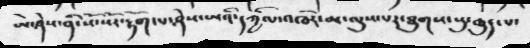ཡེ་ཤེས་སོ་སོར་རྟོག་པ་ཤེས་ཡའི་དཀྱིལ་འཁོར་མ་ལུས་པར་ཐུགས་སུ་ཆུད་པ་
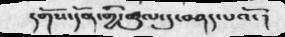དགོས་དོན་གྱི་ཚུལ་དུ་བཤད་པའོ་།
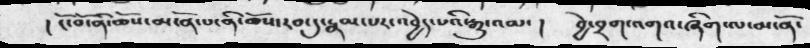། ངོ་བོ་ནི་ཆོས་མངོན་པ་ནི་ཆོས་རབ་དུ་རྣམཔར་འབྱེད་པའི་རྒྱུ་འམ་།  བྱེ་བྲག་འགའ་ཞིག་ལ་མངོན་
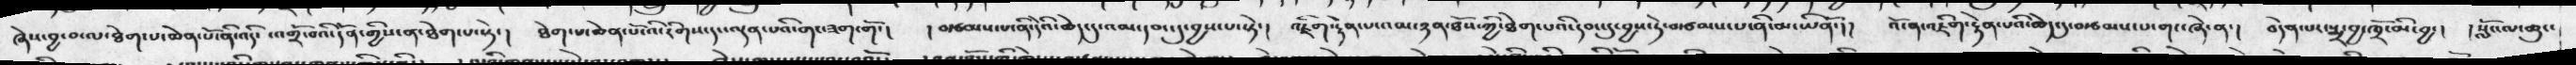ཞེས་བྱ་བ་ལ་ཐེག་པ་ཆེན་པོ་ནི་འདི་འགྲོ་བའི་དོན་གྱིས་ན་ཐེག་པ་སྟེ་།  ཐེག་པ་ཆེན་པོ་འི་རིགས་དང་ལྡན་པའི་གང་ཟག་གོ་།  ། བརྩམས་ནི་དེའི་ཆེད་དུ་འམ་དབང་དུ་བྱས་པ་སྟེ་།  འཇིག་རྟེན་པའམ་ཉན་ཐོས་ཀྱི་ཐེག་པའི་དབང་དུ་བྱས་ཏེ་བརྩམས་པ་ནི་མ་ཡིནོ་།།  འོ་ན་འཇིག་རྟེན་པའི་ཆེད་དུ་བརྩམས་པ་གང་ཞེ་ན་།   བདེན་པར་སྨྲ་བྱ་ཁྲོ་མི་བྱ་།  །སློང་པ་ཆུང་
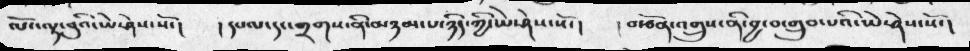ལོ་ལྟ་བུའི་ཡེ་ཤེས་སོ་།  ། དཔལ་དངགྲགས་ནི་མཉམ་པ་ཉིད་ཀྱི་ཡེ་ཤེས་སོ་།  ། བརྩོན་འགྲུས་ནི་བྱ་བ་གྲུབ་པའི་ཡེ་ཤེས་སོ་།
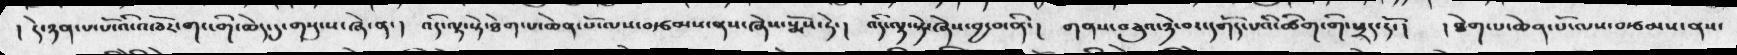།  དེ་ཉན་པ་པོ་འི་འཁོར་གང་གི་ཆེད་དུ་གསུངས་ཞེ་ན་། འདི་ལྟ་སྟེ་ཐེག་པ་ཆེན་པོ་ལས་བརྩམས་ནས་ཞེས་སྨོས་ཏེ་།  འདི་ལྟ་སྟེ་ཞེས་བྱ་བ་ནི་། གནས་བཅུའ་ཉེ་བར་དགོད་པའི་ཚིག་གི་ཕྲད་དོ་། ། ཐེག་པ་ཆེན་པོ་ལས་བརྩམས་ནས་
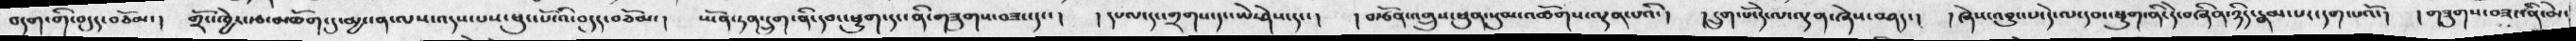བདག་གི་བདུད་བཅོམ་། གྲོང་ཁྱེར་རྩ་མཆོག་དུ་མྱ་ངན་ལས་འདས་པས་ཕུང་པོ་འི་བདུད་བཅོམ་། ཡོན་ཏན་ནི་དབང་ཕྱུག་དང་ནི་གཟུགས་བཟང་དང་།  །དཔལ་དང་གྲགས་དང་ཡེ་ཤེས་དང་།  །བརྩོན་འགྲུས་ཕུན་སུམ་འཚོགས་ལྡན་པའི་། །དྲུག་པོ་དེ་ལ་ལྡན་ཞེས་བཤད་།  །ཞེས་འབྱུང་པ་དེ་ལ་དབང་ཕྱུག་ནི་དེ་བཞིན་ཉིད་རྣམ་པར་དག་པའོ་།  །གཟུགས་བཟང་ནི་མེ་
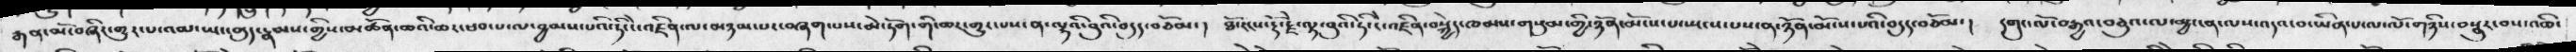རྒན་མོ་བཞིང་གྱུར་པ་འམ་ཡང་གུད་རྣམས་གྱིས་མཚོན་ཆའི་ཆར་ཕབ་པ་ལ་བྱམས་པའི་ཏིང་ངེ་འཛིན་ལ་མཉམ་པར་བཞག་པས་མེ་ཏོག་གི་ཆར་གྱུར་པས་ན་ལྷའི་བུའི་བདུད་བཅོམ་།   ཐོ་རངས་རྡོ་རྗེ་ལྟ་བུའི་ཏིང་ངེ་འཛིན་བསྐྱེད་ཁམས་གསུམ་གྱི་ཉོན་མོངས་པ་སྤངས་པས་ན་ཉོན་མོངས་པའི་བདུད་བཅོམ་།   དགུང་ལོ་བརྒྱའ་བཅུའ་ལ་མྱ་ངན་ལས་འདའ་བ་ཡིན་པ་ལ་ལོ་གཉིས་བསྣུར་བས་འཆི་
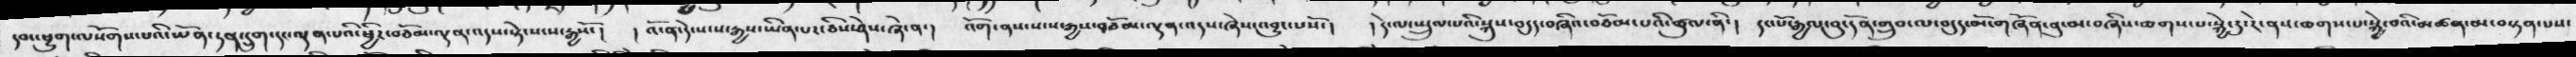དབང་ཕྱུག་ལསོགས་པའི་ཡོན་ཏན་དྲུག་དང་ལྡན་པའི་ཕྱིར་བཅོམ་ལྡན་འདས་སྟེ་སངས་རྒྱསོ་།  ། འོ་ན་དེ་སངས་རྒྱས་ཡིན་པར་ཅིས་ཤེས་ཞེ་ན་།  འོག་ནས་སངས་རྒྱས་བཅོམ་ལྡན་འདས་ཞེས་འབྱུང་པསོ་།  །དེ་ལ་སྤྲུལ་པའི་སྐུས་བདུད་བཞིའ་བཅོམ་པའི་ཚུལ་ནི་།  དང་པོ་རྒྱལ་བུ་དོན་གྲུབ་ལ་བདུད་མོ་གཞོན་ནུ་མ་བཞིས་ཆགས་པ་སྐྱེ་དུ་རེ་ནས་ཆགས་པ་སྐྱེ་བའི་མཚན་མ་བསྟན་པས་
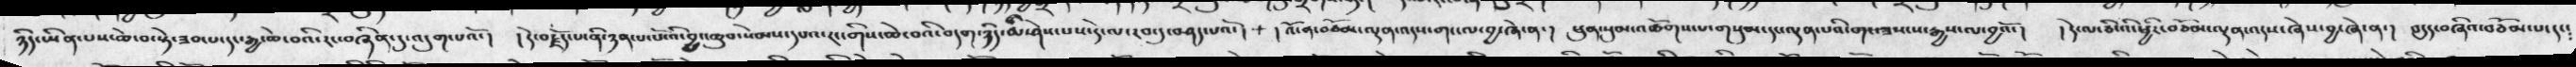ཉིད་ཡིན་པས་ཆེ་བ་སྟེ་ཟབ་པ་དང་རྒྱ་ཆེ་བའི་རང་བཞིན་དུ་འདུག་པའོ་།   ། དེ་བརྗོད་པ་ནི་ཉན་པ་པོ་འི་བྱང་ཆུབ་སེམས་དཔའ་རང་གིས་ཆེ་བའི་བདག་ཉིད་མི་ཤེས་པས་དེ་ལ་རབ་དུ་བཤད་པའོ་།    འོ་ན་བཅོམ་ལྡན་འདས་གང་ལ་བྱ་ཞེ་ན་།   ཕུན་སུམ་འཚོགས་པ་གསུམ་དང་ལྡན་པའི་གང་ཟསངས་རྒྱས་ལ་བྱའོ་།   ། དེ་ལ་ཅིའི་ཕྱིར་བཅོམ་ལྡན་འདས་ཞེས་བྱ་ཞེ་ན་།  བདུད་བཞིའ་བཅོམ་པ་དང་༴
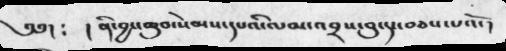༄༅།  ༴  ། ནི་བྱང་ཆུབ་སེམས་དཔའི་ལམ་འབྲས་བུ་དང་བཅས་པའོ་།
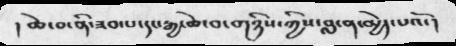། ཆེ་བ་ནི་ཟབ་པ་དང་རྒྱ་ཆེ་བ་གཉིས་ཀྱིས་བླ་ན་མྱེད་པའོ་།
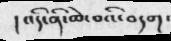། འདི་ནི་ཆེ་བའི་བདག་
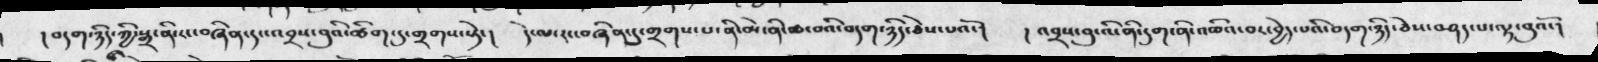། བདག་ཉིད་ཀྱི་སྒྲ་ནི་རང་བཞིན་དང་འབྲས་བུའི་ཚིག་དུ་གྲགས་སྟེ་།  ད་ེལ་རང་བཞིན་གྲགས་པ་ནི་མེ་ནི་ཚ་བའི་བདག་ཉིད་ཅེས་པའོ་།  ། འབྲས་བུ་འི་ནི་དུག་ནི་འཆིའ་བར་བྱེད་པའི་བདག་ཉིད་ཅེས་བཤད་པ་ལྟ་བུའོ་།
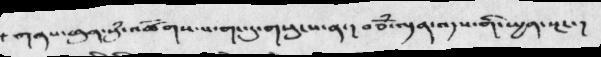གནས་ཕུན་སུཾ་འཚོགས་པ་གང་དུ་གསུངས་ན་།   བཅོཾ་ལྡན་འདས་གི་ཡྱན་སྔར་།
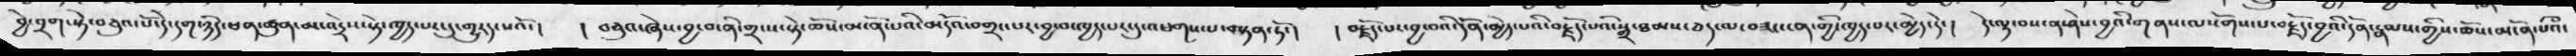བྱེ་བྲག་སྟེ་བཅུའ་པོ་དེ་དག་ཉིད་ཕན་ཚུན་མ་འདྲེས་སྟེ་ཁྱད་པར་དུ་གྱུརད་པའོ་།   ། བཅུའ་ཞེས་བྱ་བ་ནི་གྲངས་སྟེ་ཆོས་མངོན་པའི་མདོའ་བགྲང་པར་བྱ་བ་ཁྱད་པར་དུ་འཕགས་པ་བསྟན་ཏོ་།  །བརྗོད་པར་བྱ་བའི་དོན་མྱེད་པའི་བརྗོད་པའི་སྒྲ་ཐམས་ཅད་ལ་བཟང་ངན་གྱི་ཁྱད་པར་མྱེད་དེ་།  དེ་ལྟ་བས་ན་ཤེས་བྱའི་གནས་ལསོགས་པ་བརྗོད་བྱའི་དོན་རྣམས་གྱིས་ཆོས་མངོན་པའི་
